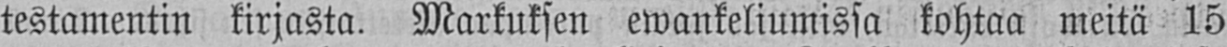testamentin kirjasta. Markuksen ewankeliumissa kohtaa meitä 15
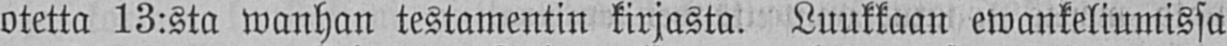otetta 13:sta wanhan testamentin kirjasta. Luukkaan ewankeliumissa
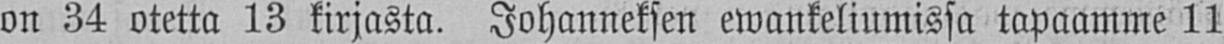on 34 otetta 13 kirjasta. Johanneksen ewankeliumissa tapaamme 11
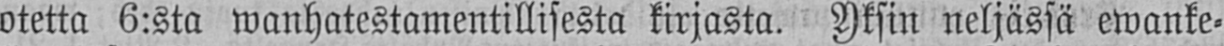otetta 6:sta wanhatestamentillisesta kirjasta. Yksin neljässä ewanke-
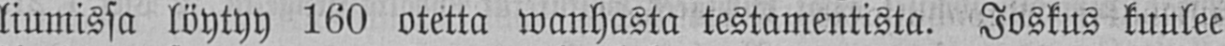liumissa löytyy 160 otetta wanhasta testamentista. Joskus kuulee
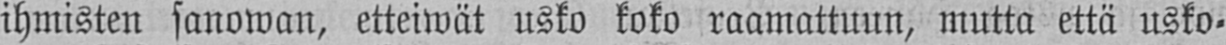ihmisten sanowan, etteiwät usko koko raamattuun, mutta että usko-
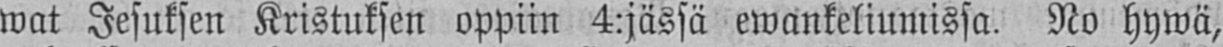wat Jesuksen Kristuksen oppiin 4:jässä ewankeliumissa. No hywä,
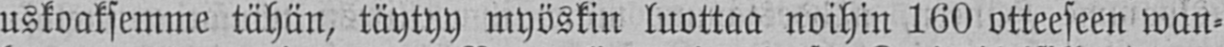uskoaksemme tähän, täytyy myöskin luottaa noihin 160 otteeseen wan-
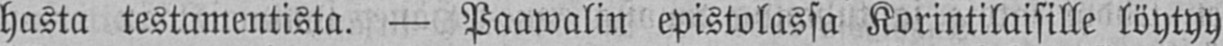hasta testamentista. — Paawalin epistolassa Korintilaisille löytyy
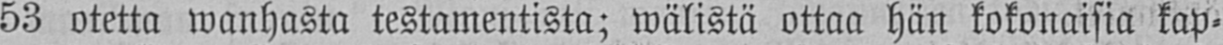53 otetta wanhasta testamentista; wälistä ottaa hän kokonaisia kap-
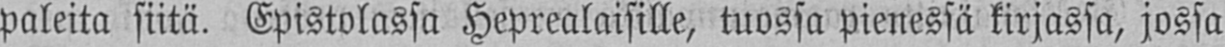paleita siitä. Epistolassa Heprealaisille, tuossa pienessä kirjassa, jossa
